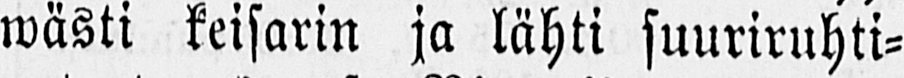wästi keisarin ja lähti suuriruhti-
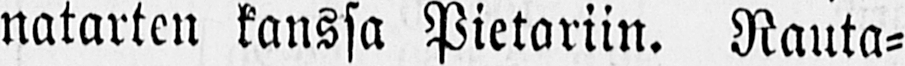natarten kanssa Pietariin. Rauta-
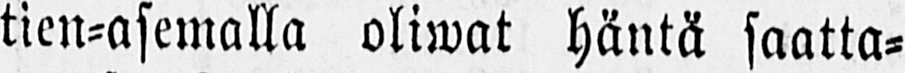tien-asemalla oliwat häntä saatta-
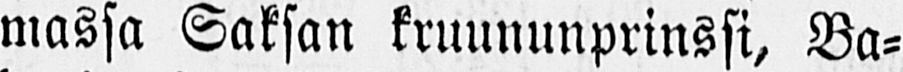massa Saksan kruununprinssi, Ba-
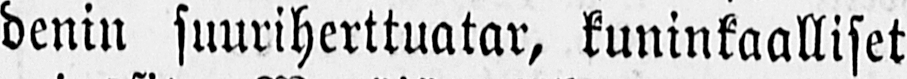denin suuriherttuatar, kuninkaalliset
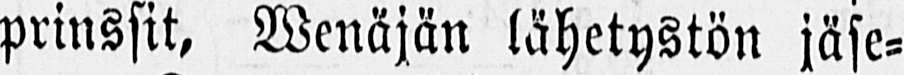prinssit, Wenäjän lähetystön jäse-
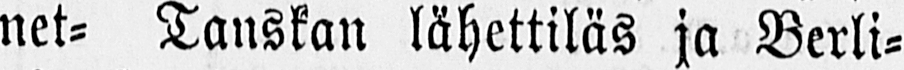net- Tanskan lähettiläs ja Berli-
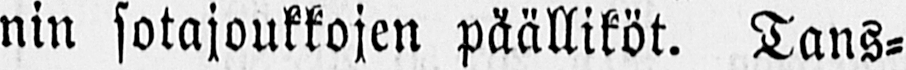nin sotajoukkojen päälliköt. Tans-
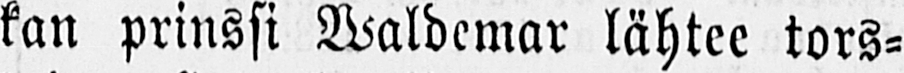kan prinssi Waldemar lähtee tors-
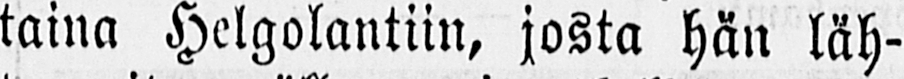taina Helgolantiin, josta hän läh-
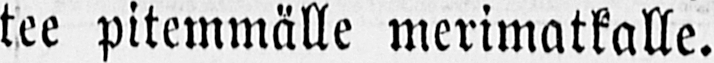tee pitemmälle merimatkalle.
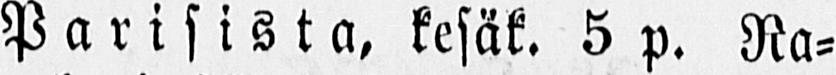Parisista, kesäk. 5 p. Na-
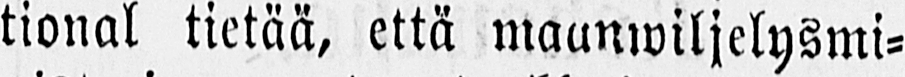tional tietää, että maanwiljelysmi-
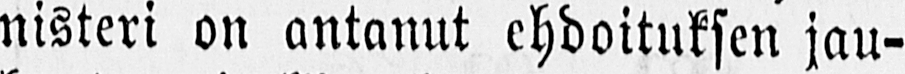nisteri on antanut ehdoituksen jau-
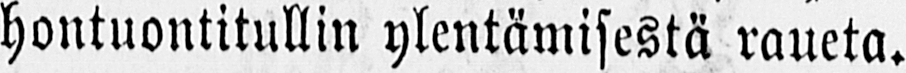hontuontitullin ylentämisestä raueta.
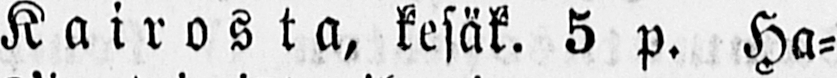Kairosta, kesäk. 5 p. Ha-
